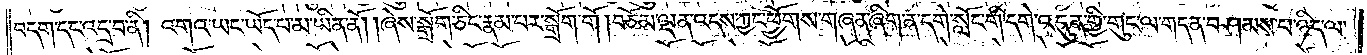བདག་དང་འདྲ་བ་ནི། འགའ་ཡང་ཡོད་པ་མ་ཡིན་ནོ། །ཞེས་སྒྲོག་ཅིང་རྣམ་པར་སྒྲོག་གོ །བཅོམ་ལྡན་འདས་ཀྱང་ཕྱོགས་གཞན་ཞིག་ན་དགེ་སློང་གི་དགེ་འདུན་གྱི་གུང་ལ་གདན་བཤམས་པ་ཉིད་ལ་
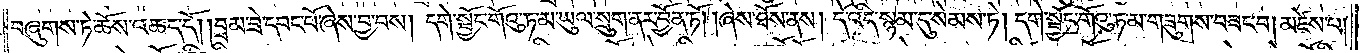བཞུགས་ཏེ་ཆོས་འཆད་དོ། །བྲམ་ཟེ་དབང་པོ་ཞེས་བྱ་བས། དགེ་སྦྱོང་གོའུ་ཏ་མ་ཡུལ་སྲུག་ནར་བྱོན་ཏོ། །ཞེས་ཐོས་ནས། དེ་འདི་སྙམ་དུ་སེམས་ཏེ། དགེ་སྦྱོང་གོའུ་ཏ་མ་གཟུགས་བཟང་བ། མཛེས་པ།
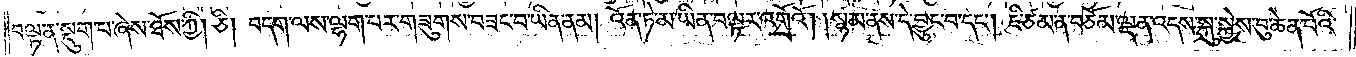བལྟ་ན་སྡུག་པ་ཞེས་ཐོས་ཀྱི། ཅི། བདག་ལས་ལྷག་པར་གཟུགས་བཟང་བ་ཡིན་ནམ། འོན་ཏེ་མ་ཡིན་བལྟར་འགྲོའོ། །སྙམ་ནས་དེ་བྱུང་བ་དང༌། ཇི་ཙམ་ན་བཅོམ་ལྡན་འདས་སྐུ་སྐྱེས་བུ་ཆེན་པོའི་
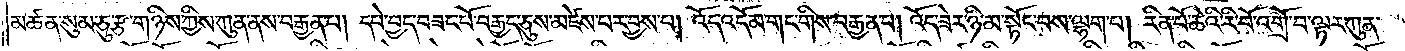མཚན་སུམ་ཅུ་རྩ་གཉིས་ཀྱིས་ཀུན་ནས་བརྒྱན་པ། དཔེ་བྱད་བཟང་པོ་བརྒྱད་ཅུས་མཛེས་པར་བྱས་པ། འོད་འདོམ་གང་གིས་བརྒྱན་པ། འོད་ཟེར་ཉི་མ་སྟོང་བས་ལྷག་པ། རིན་པོ་ཆེའི་རི་བོ་འགྲོ་བ་ལྟར་ཀུན་
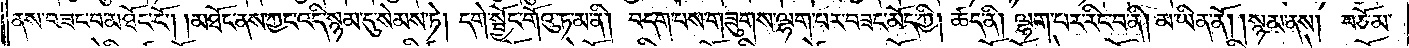ནས་བཟང་བ་མཐོང་ངོ༌། །མཐོང་ནས་ཀྱང་འདི་སྙམ་དུ་སེམས་ཏེ། དགེ་སྦྱོང་གོའུ་ཏ་མ་ནི། བདག་པས་གཟུགས་ལྷག་པར་བཟང་མོད་ཀྱི། ཚད་ནི། ལྷག་པར་རིང་བ་ནི། མ་ཡིན་ནོ། །སྙམ་ནས། བཅོམ་
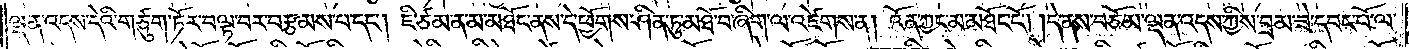ལྡན་འདས་དེའི་གཙུག་ཏོར་བལྟ་བར་བརྩམས་པ་དང༌། ཇི་ཙམ་ན་མ་མཐོང་ནས་དེ་ཕྱོགས་ཤིན་ཏུ་མཐོ་བ་ཞིག་ལ་འཛེགས་ན། འོན་ཀྱང་མ་མཐོང་ངོ༌། །དེ་ནས་བཅོམ་ལྡན་འདས་ཀྱིས་བྲམ་ཟེ་དབང་པོ་ལ་
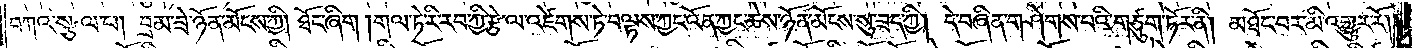བཀའ་སྩལ་པ། བྲམ་ཟེ་ཉོན་མོངས་ཀྱི། ཐོང་ཞིག །གལ་ཏེ་རི་རབ་ཀྱི་རྩེ་ལ་འཛེགས་ཏེ་བལྟས་ཀྱང་འོན་ཀྱང་ཆེས་ཉོན་མོངས་སུ་ཟད་ཀྱི། དེ་བཞིན་གཤེགས་པའི་གཙུག་ཏོར་ནི། མཐོང་བར་མི་འགྱུར་རོ། །
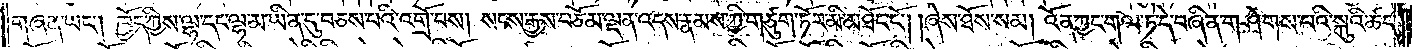གཞན་ཡང༌། ཁྱོད་ཀྱིས་ལྷ་དང་ལྷ་མ་ཡིན་དུ་བཅས་པའི་འགྲོ་བས། སངས་རྒྱས་བཅོམ་ལྡན་འདས་རྣམས་ཀྱི་གཙུག་ཏོར་མི་མཐོང་ངོ༌། །ཞེས་ཐོས་སམ། འོན་ཀྱང་གལ་ཏེ་དེ་བཞིན་གཤེགས་པའི་སྐུའི་ཚད་
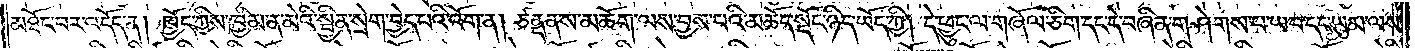མཐོང་བར་འདོད་ན། ཁྱོད་ཀྱིས་ཁྱིམ་ན་མེའི་སྦྱིན་སྲེག་བྱེད་པའི་འོག་ན། ཙནྡན་ས་མཆོག་ལས་བྱས་པའི་མཆོད་སྡོང་ཉིད་ཡོད་ཀྱི། དེ་ཕྱུང་ལ་གཞོལ་ཅིག་དང་དེ་བཞིན་གཤེགས་པ་ཡབ་དང་ཡུམ་ལས་
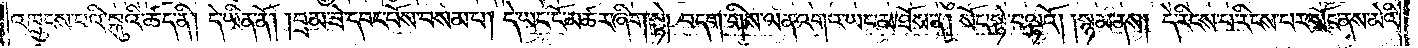འཁྲུངས་པའི་སྐུའི་ཚད་ནི། དེ་ཡིན་ནོ། །བྲམ་ཟེ་དབང་པོས་བསམ་པ། དེ་ཡང་ངོ་མཚར་ཞིག་སྟེ། བདག་གིས་ལན་འགའ་ཡང་མ་ཐོས་ན། སོང་སྟེ་བལྟའོ། །སྙམ་ནས། དེ་རིངས་པ་རིངས་པར་སོང་ནས་མེའི་
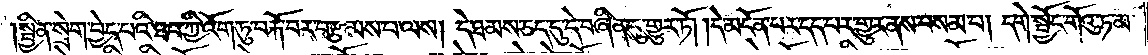སྦྱིན་སྲེག་བྱེད་པའི་ཐབ་ཀྱི་འོག་ཏུ་བརྐོ་བར་བརྩམས་པ་ལས། དེ་ཐམས་ཅད་དུ་དེ་བཞིན་དུ་གྱུར་ཏོ། །དེ་མངོན་པར་དད་པར་གྱུར་ནས་བསམ་པ། དགེ་སྦྱོང་གོའུ་ཏ་མ་
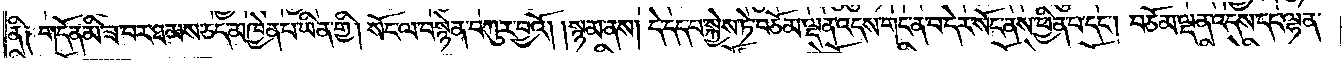ནི། གདོན་མི་ཟ་བར་ཐམས་ཅད་མཁྱེན་པ་ཡིན་གྱི། སོང་ལ་བསྙེན་བཀུར་བྱའོ། །སྙམ་ནས། དེ་དད་པ་སྐྱེས་ཏེ་བཅོམ་ལྡན་འདས་གང་ན་བ་དེར་སོང་ནས་ཕྱིན་པ་དང་བཅོམ་ལྡན་འདས་དང་ལྷན་
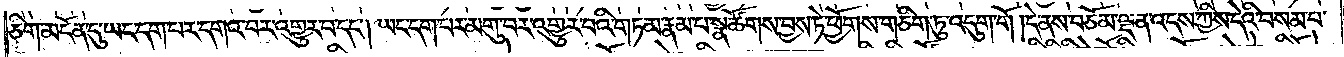ཅིག་མངོན་དུ་ཡང་དག་པར་དགའ་བར་འགྱུར་བ་དང༌། ཡང་དག་པར་མགུ་བར་འགྱུར་བའི་གཏམ་རྣམ་པ་སྣ་ཚོགས་བྱས་ཏེ་ཕྱོགས་གཅིག་ཏུ་འདུག་གོ །དེ་ནས་བཅོམ་ལྡན་འདས་ཀྱིས་དེའི་བསམ་པ་
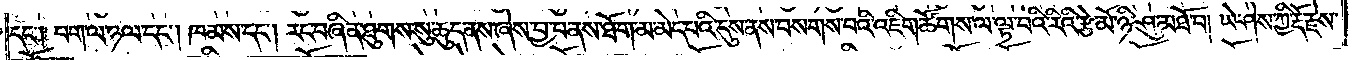དང༌། བག་ལ་ཉལ་དང༌། ཁམས་དང༌། རང་བཞིན་ཐུགས་སུ་ཆུད་ནས་ཞེས་བྱ་བ་ནས་ཐོག་མ་མེད་པའི་དུས་ནས་བསགས་པའི་འཇིག་ཚོགས་ལ་ལྟ་བའི་རིའི་རྩེ་མོ་ཉི་ཤུ་མཐོ་བ། ཡེ་ཤེས་ཀྱི་རྡོ་རྗེས་
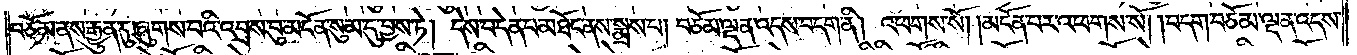བཅོམ་ནས་རྒྱུན་དུ་ཞུགས་པའི་འབྲས་བུ་མངོན་སུམ་དུ་བྱས་ཏེ། དེས་བདེན་པ་མཐོང་ནས་སྨྲས་པ། བཅོམ་ལྡན་འདས་བདག་ནི། འཕགས་སོ། །མངོན་པར་འཕགས་སོ། །བདག་བཅོམ་ལྡན་འདས་
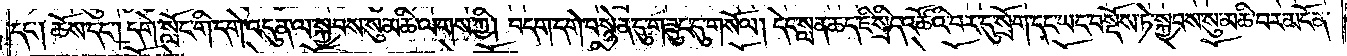དང༌། ཆོས་དང༌། དགེ་སློང་གི་དགེ་འདུན་ལ་སྐྱབས་སུ་མཆི་ལགས་ཀྱི། བདག་དགེ་བསྙེན་དུ་གཟུང་དུ་གསོལ། དེང་སླན་ཆད་ཇི་སྲིད་འཚོའི་བར་དུ་སྲོག་དང་ཡང་བསྔོས་ཏེ་སྐྱབས་སུ་མཆི་བར་མངོན་
